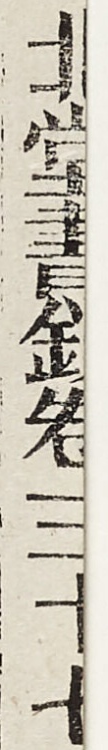北堂書鈔卷第三十七
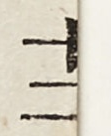十二
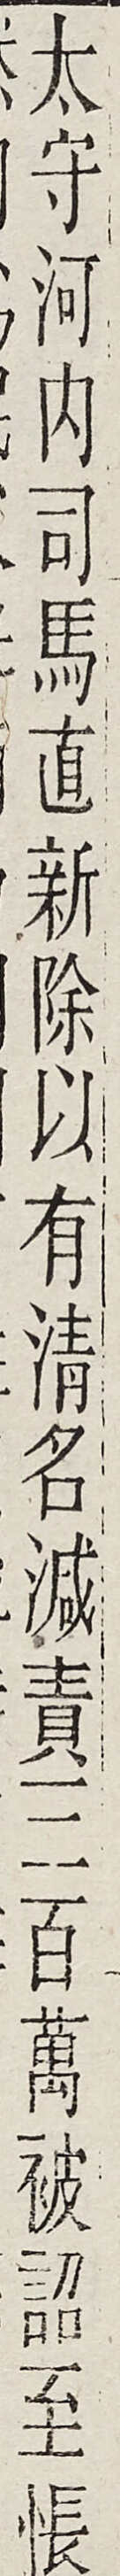太守河內司馬直新除以有清名滅責三百萬被詔至帳
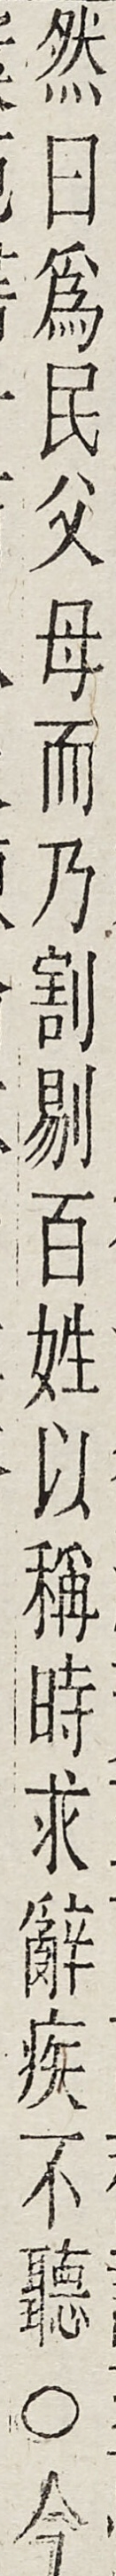然曰為民父母而乃割剔百姓以稱時求辭疾不聽○今
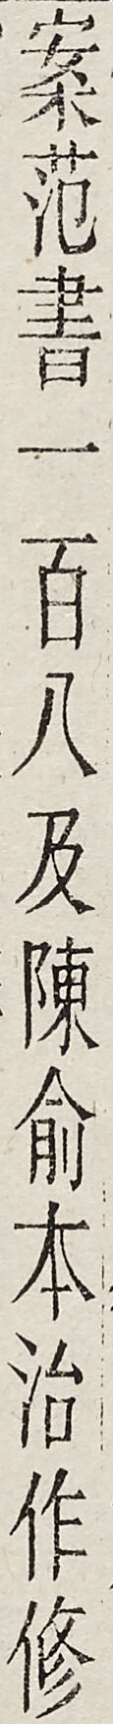案範書一百八及陳俞本治作修
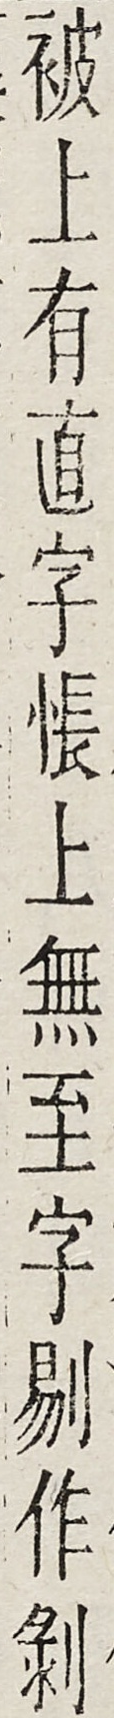被上有直字帳上無至字剔作剝
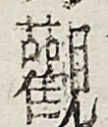觀
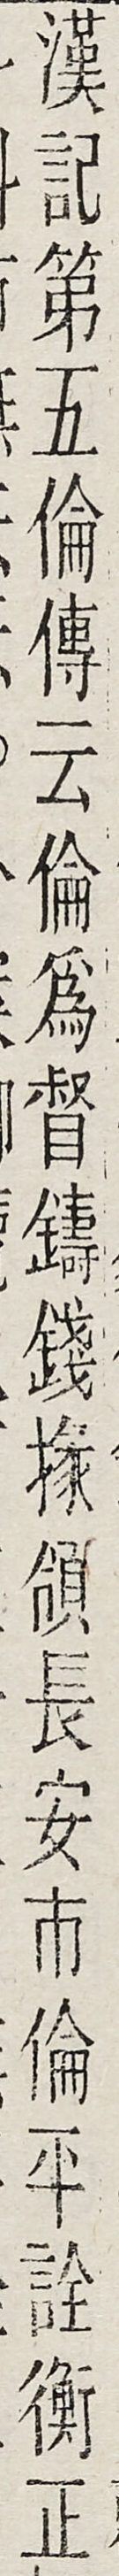漢記第五倫傳云倫為督鑄錢掾領長安而倫平詮衡正
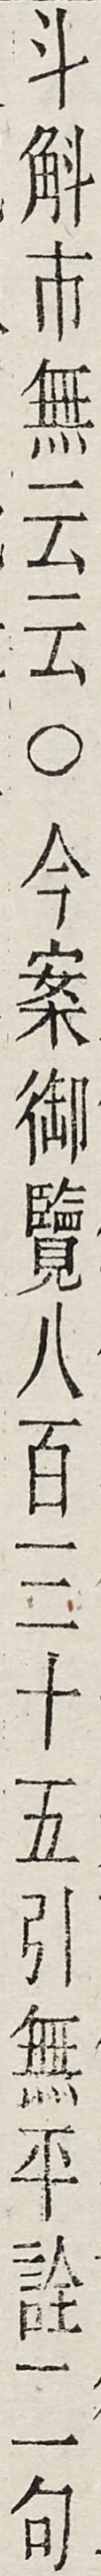斗斛市無云云○今案御覽八百三十五引無平詮二句
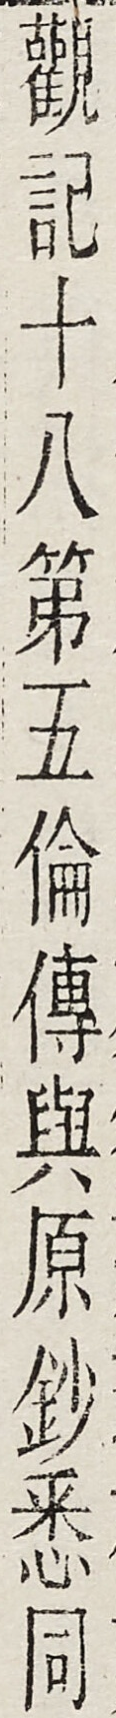觀記十八第五倫傳與原鈔悉同
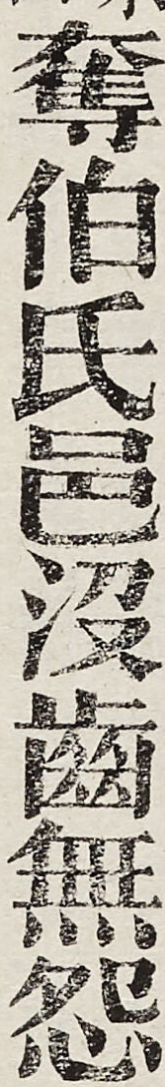奪伯氏邑沒齒無怨
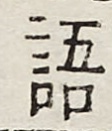語
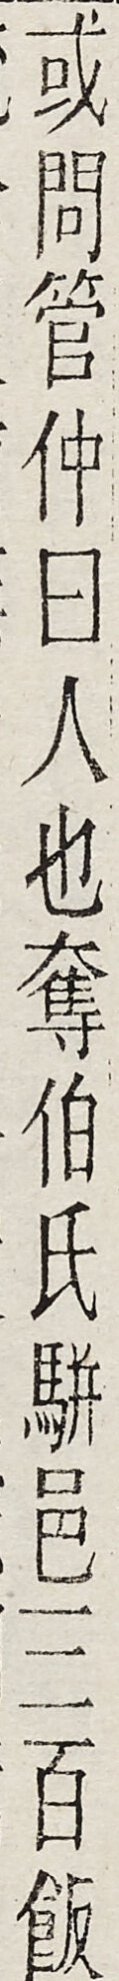或問管仲曰人也奪伯氏駢邑三百飯
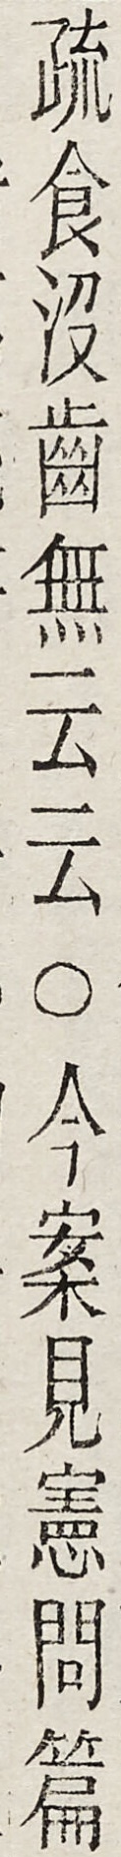疏食沒齒無云云○今案見憲問篇
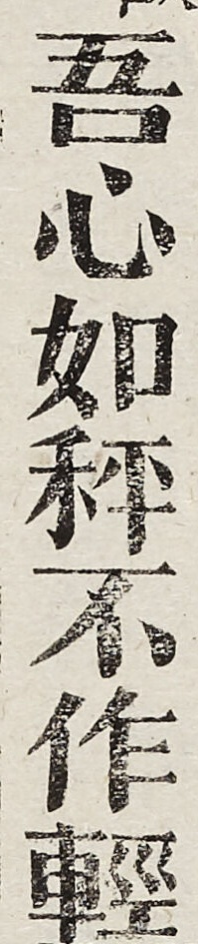吾心如秤不作輕
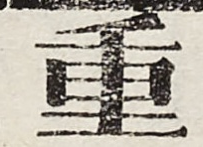重
